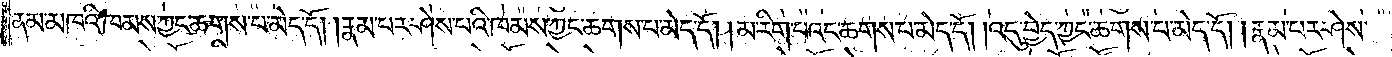ནམ་མཁའི་ཁམས་ཀྱང་ཆགས་པ་མེད་དོ། །རྣམ་པར་ཤེས་པའི་ཁམས་ཀྱང་ཆགས་པ་མེད་དོ། །མ་རིག་པའང་ཆགས་པ་མེད་དོ། །འདུ་བྱེད་ཀྱང་ཆགས་པ་མེད་དོ། །རྣམ་པར་ཤེས་
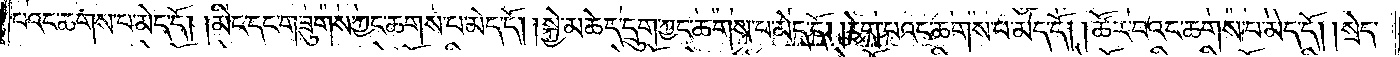པའང་ཆགས་པ་མེད་དོ། །མིང་དང་གཟུགས་ཀྱང་ཆགས་པ་མེད་དོ། །སྐྱེ་མཆེད་དྲུག་ཀྱང་ཆགས་པ་མེད་དོ། །རེག་པའང་ཆགས་པ་མེད་དོ། །ཚོར་བའང་ཆགས་པ་མེད་དོ། །སྲེད་
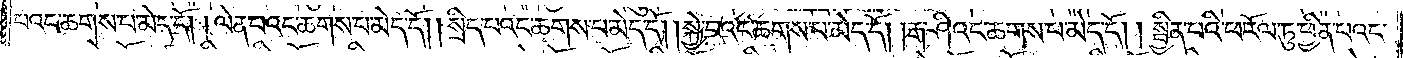པའང་ཆགས་པ་མེད་དོ། །ལེན་པའང་ཆགས་པ་མེད་དོ། །སྲིད་པའང་ཆགས་པ་མེད་དོ། །སྐྱེ་བའང་ཆགས་པ་མེད་དོ། །རྒ་ཤིའང་ཆགས་པ་མེད་དོ། །སྦྱིན་པའི་ཕ་རོལ་ཏུ་ཕྱིན་པའང་
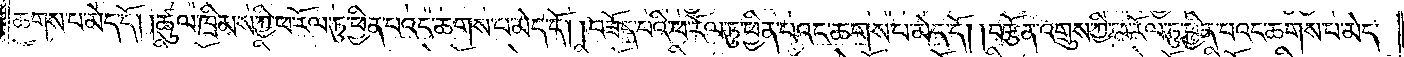ཆགས་པ་མེད་དོ། །ཚུལ་ཁྲིམས་ཀྱི་ཕ་རོལ་ཏུ་ཕྱིན་པའང་ཆགས་པ་མེད་དོ། །བཟོད་པའི་ཕ་རོལ་ཏུ་ཕྱིན་པའང་ཆགས་པ་མེད་དོ། །བརྩོན་འགྲུས་ཀྱི་ཕ་རོལ་ཏུ་ཕྱིན་པའང་ཆགས་པ་མེད་
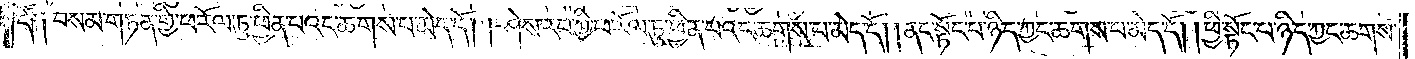དོ༑ ༑བསམ་གཏན་གྱི་ཕ་རོལ་ཏུ་ཕྱིན་པའང་ཆགས་པ་མེད་དོ། །ཤེས་རབ་ཀྱི་ཕ་རོལ་ཏུ་ཕྱིན་པའང་ཆགས་པ་མེད་དོ། །ནང་སྟོང་པ་ཉིད་ཀྱང་ཆགས་པ་མེད་དོ། །ཕྱི་སྟོང་པ་ཉིད་ཀྱང་ཆགས་
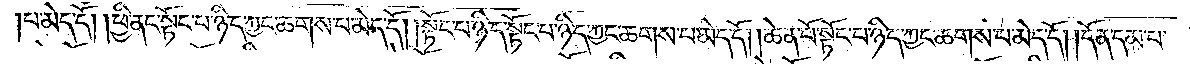པ་མེད་དོ། །ཕྱི་ནང་སྟོང་པ་ཉིད་ཀྱང་ཆགས་པ་མེད་དོ། །སྟོང་པ་ཉིད་སྟོང་པ་ཉིད་ཀྱང་ཆགས་པ་མེད་དོ། །ཆེན་པོ་སྟོང་པ་ཉིད་ཀྱང་ཆགས་པ་མེད་དོ། །དོན་དམ་པ་
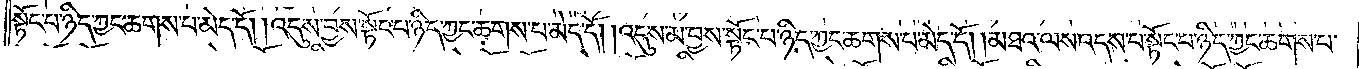སྟོང་པ་ཉིད་ཀྱང་ཆགས་པ་མེད་དོ། །འདུས་བྱས་སྟོང་པ་ཉིད་ཀྱང་ཆགས་པ་མེད་དོ། །འདུས་མ་བྱས་སྟོང་པ་ཉིད་ཀྱང་ཆགས་པ་མེད་དོ། །མཐའ་ལས་འདས་པ་སྟོང་པ་ཉིད་ཀྱང་ཆགས་པ་
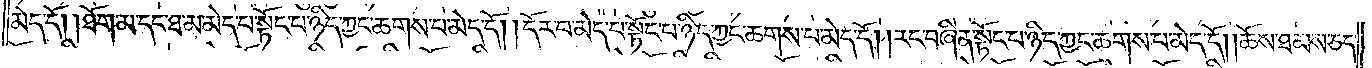མེད་དོ། །ཐོག་མ་དང་ཐ་མ་མེད་པ་སྟོང་པ་ཉིད་ཀྱང་ཆགས་པ་མེད་དོ། །དོར་བ་མེད་པ་སྟོང་པ་ཉིད་ཀྱང་ཆགས་པ་མེད་དོ། །རང་བཞིན་སྟོང་པ་ཉིད་ཀྱང་ཆགས་པ་མེད་དོ། །ཆོས་ཐམས་ཅད་
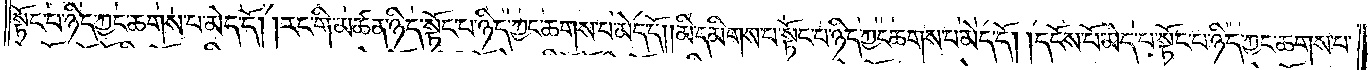སྟོང་པ་ཉིད་ཀྱང་ཆགས་པ་མེད་དོ། །རང་གི་མཚན་ཉིད་སྟོང་པ་ཉིད་ཀྱང་ཆགས་པ་མེད་དོ། །མི་དམིགས་པ་སྟོང་པ་ཉིད་ཀྱང་ཆགས་པ་མེད་དོ། །དངོས་པོ་མེད་པ་སྟོང་པ་ཉིད་ཀྱང་ཆགས་པ་
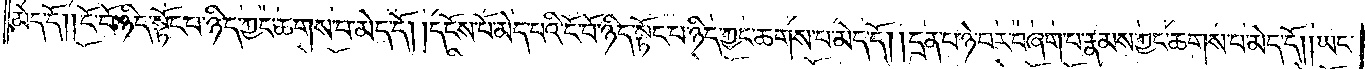མེད་དོ། །ངོ་བོ་ཉིད་སྟོང་པ་ཉིད་ཀྱང་ཆགས་པ་མེད་དོ། །དངོས་པོ་མེད་པའི་ངོ་བོ་ཉིད་སྟོང་པ་ཉིད་ཀྱང་ཆགས་པ་མེད་དོ། །དྲན་པ་ཉེ་བར་བཞག་པ་རྣམས་ཀྱང་ཆགས་པ་མེད་དོ། །ཡང་
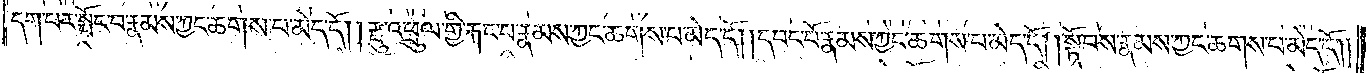དག་པར་སྤོང་བ་རྣམས་ཀྱང་ཆགས་པ་མེད་དོ། །རྫུ་འཕྲུལ་གྱི་རྐང་པ་རྣམས་ཀྱང་ཆགས་པ་མེད་དོ། །དབང་པོ་རྣམས་ཀྱང་ཆགས་པ་མེད་དོ། །སྟོབས་རྣམས་ཀྱང་ཆགས་པ་མེད་དོ༎
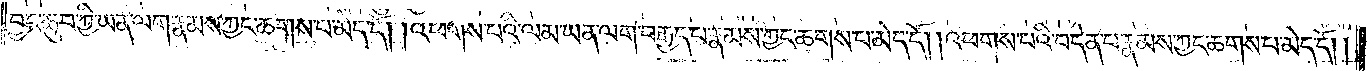བྱང་ཆུབ་ཀྱི་ཡན་ལག་རྣམས་ཀྱང་ཆགས་པ་མེད་དོ། །འཕགས་པའི་ལམ་ཡན་ལག་བརྒྱད་པ་རྣམས་ཀྱང་ཆགས་པ་མེད་དོ། །འཕགས་པའི་བདེན་པ་རྣམས་ཀྱང་ཆགས་པ་མེད་དོ། །
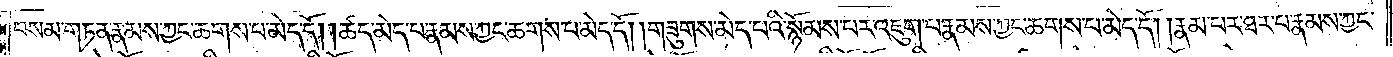བསམ་གཏན་རྣམས་ཀྱང་ཆགས་པ་མེད་དོ། །ཚད་མེད་པ་རྣམས་ཀྱང་ཆགས་པ་མེད་དོ། །གཟུགས་མེད་པའི་སྙོམས་པར་འཇུག་པ་རྣམས་ཀྱང་ཆགས་པ་མེད་དོ། །རྣམ་པར་ཐར་པ་རྣམས་ཀྱང་
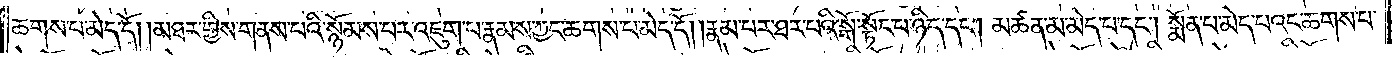ཆགས་པ་མེད་དོ། །མཐར་གྱིས་གནས་པའི་སྙོམས་པར་འཇུག་པ་རྣམས་ཀྱང་ཆགས་པ་མེད་དོ། །རྣམ་པར་ཐར་པའི་སྒོ་སྟོང་པ་ཉིད་དང༌། མཚན་མ་མེད་པ་དང༌། སྨོན་པ་མེད་པའང་ཆགས་པ་
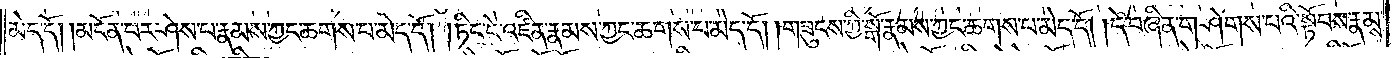མེད་དོ། །མངོན་པར་ཤེས་པ་རྣམས་ཀྱང་ཆགས་པ་མེད་དོ། །ཏིང་ངེ་འཛིན་རྣམས་ཀྱང་ཆགས་པ་མེད་དོ། །གཟུངས་ཀྱི་སྒོ་རྣམས་ཀྱང་ཆགས་པ་མེད་དོ། །དེ་བཞིན་གཤེགས་པའི་སྟོབས་རྣམས་
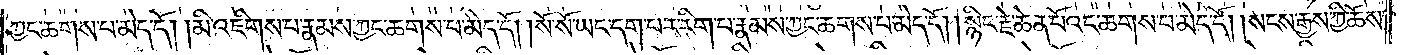ཀྱང་ཆགས་པ་མེད་དོ། །མི་འཇིགས་པ་རྣམས་ཀྱང་ཆགས་པ་མེད་དོ། །སོ་སོ་ཡང་དག་པར་རིག་པ་རྣམས་ཀྱང་ཆགས་པ་མེད་དོ། །སྙིང་རྗེ་ཆེན་པོའང་ཆགས་པ་མེད་དོ། །སངས་རྒྱས་ཀྱི་ཆོས་
